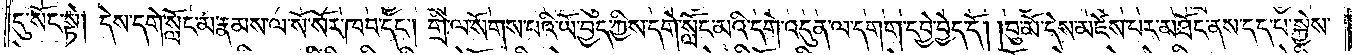དུ་སོང་སྟེ། དེས་དགེ་སློང་མ་རྣམས་ལ་སོ་སོར་ཁབ་དང༌། གྲི་ལ་སོགས་པའི་ཡོ་བྱད་ཀྱིས་དགེ་སློང་མའི་དགེ་འདུན་ལ་དགག་དབྱེ་བྱེད་དོ། །བུ་མོ་དེས་མཛེས་པར་མཐོང་ནས་དད་པ་སྐྱེས་
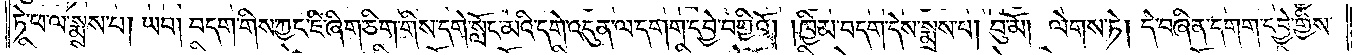ཏེ་ཕ་ལ་སྨྲས་པ། ཡབ། བདག་གིས་ཀྱང་ཇི་ཞིག་ཅིག་གིས་དགེ་སློང་མའི་དགེ་འདུན་ལ་དགག་དབྱེ་བགྱིའོ། །ཁྱིམ་བདག་དེས་སྨྲས་པ། བུ་མོ། ལེགས་ཏེ། དེ་བཞིན་དགག་དབྱེ་གྱིས་
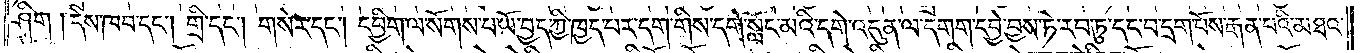ཤིག །དེས་ཁབ་དང༌། གྲི་དང༌། གསེར་དང༌། དབྱིག་ལ་སོགས་པ་ཡོ་བྱད་ཀྱི་ཁྱད་པར་དག་གིས་དགེ་སློང་མའི་དགེ་འདུན་ལ་དགག་དབྱེ་བྱས་ཏེ་རབ་ཏུ་དང་བ་དྲག་པོས་རྒན་པའི་མཐའ་
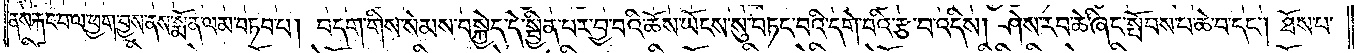ནས་རྐང་བ་ལ་ཕྱག་བྱས་ནས་སྨོན་ལམ་བཏབ་པ། བདག་གིས་སེམས་བསྐྱེད་དེ་སྦྱིན་པར་བྱ་བའི་ཆོས་ཡོངས་སུ་བཏང་བའི་དགེ་བའི་རྩ་བ་འདིས། ཤེས་རབ་ཆེ་ཞིང་སྤོབས་པ་ཆེ་བ་དང༌། ཐོས་པ་
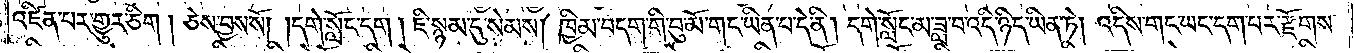འཛིན་པར་གྱུར་ཅིག། ཅེས་བྱས་སོ། །དགེ་སློང་དག། ཇི་སྙམ་དུ་སེམས། ཁྱིམ་བདག་གི་བུ་མོ་གང་ཡིན་པ་དེ་ནི། དགེ་སློང་མ་ཟླ་བ་འདི་ཉིད་ཡིན་ཏེ། འདིས་གང་ཡང་དག་པར་རྫོགས་
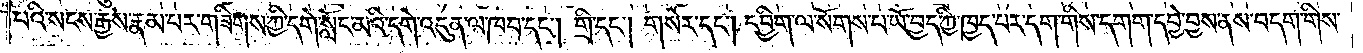པའི་སངས་རྒྱས་རྣམ་པར་གཟིགས་ཀྱི་དགེ་སློང་མའི་དགེ་འདུན་ལ་ཁབ་དང༌། གྲི་དང༌། གསེར་དང༌། དབྱིག་ལ་སོགས་པ་ཡོ་བྱད་ཀྱི་ཁྱད་པར་དག་གིས་དགག་དབྱེ་བྱས་ནས་བདག་གིས་
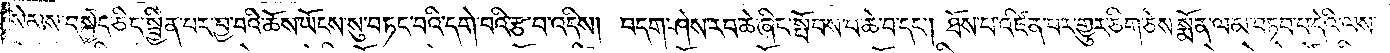སེམས་བསྐྱེད་ཅིང་སྦྱིན་པར་བྱ་བའི་ཆོས་ཡོངས་སུ་བཏང་བའི་དགེ་བའི་རྩ་བ་འདིས། བདག་ཤེས་རབ་ཆེ་ཞིང་སྤོབས་པ་ཆེ་བ་དང༌། ཐོས་པ་འཛིན་པར་གྱུར་ཅིག་ཅེས་སྨོན་ལམ་བཏབ་པ་དེའི་ལས་
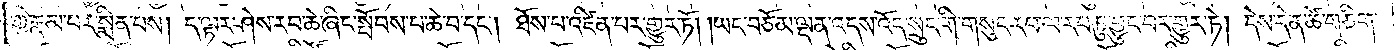ཀྱི་རྣམ་པར་སྨིན་པས། ད་ལྟར་ཤེས་རབ་ཆེ་ཞིང་སྤོབས་པ་ཆེ་བ་དང༌། ཐོས་པ་འཛིན་པར་གྱུར་ཏོ། །ཡང་བཅོམ་ལྡན་འདས་འོད་སྲུང་གི་གསུང་རབ་ལ་རབ་ཏུ་བྱུང་བར་གྱུར་ཏོ། །དེས་དེ་ན་ཚེ་གཅིག་
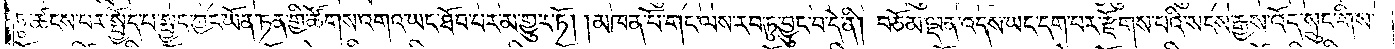ཏུ་ཚངས་པར་སྤྱོད་པ་སྤྱད་ཀྱང་ཡོན་ཏན་གྱི་ཚོགས་འགའ་ཡང་ཐོབ་པར་མ་གྱུར་ཏོ། །མཁན་པོ་གང་ལས་རབ་ཏུ་བྱུང་བ་དེ་ནི། བཅོམ་ལྡན་འདས་ཡང་དག་པར་རྫོགས་པའི་སངས་རྒྱས་འོད་སྲུང་གིས་
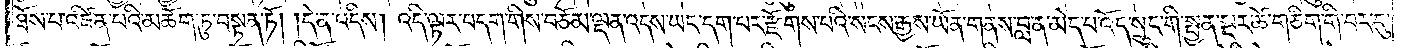ཐོས་པ་འཛིན་པའི་མཆོག་ཏུ་བསྟན་ཏོ། །དེ་ན་འདིས། འདི་ལྟར་བདག་གིས་བཅོམ་ལྡན་འདས་ཡང་དག་པར་རྫོགས་པའི་སངས་རྒྱས་ཡོན་གནས་བླ་ན་མེད་པ་འོད་སྲུང་གི་སྤྱན་སྔར་ཚེ་གཅིག་གི་བར་དུ་
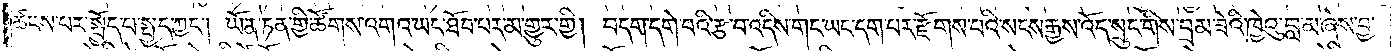ཚངས་པར་སྤྱོད་པ་སྤྱད་ཀྱང༌། ཡོན་ཏན་གྱི་ཚོགས་འགའ་ཡང་ཐོབ་པར་མ་གྱུར་གྱི། བདག་དགེ་བའི་རྩ་བ་འདིས་གང་ཡང་དག་པར་རྫོགས་པའི་སངས་རྒྱས་འོད་སྲུང་གིས་བྲམ་ཟེའི་ཁྱེའུ་བླ་མ་ཞེས་བྱ་
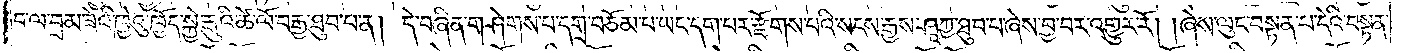བ་ལ་བྲམ་ཟེའི་ཁྱེའུ་ཁྱོད་སྐྱེ་རྒུའི་ཚེ་ལོ་བརྒྱ་ཐུབ་པ་ན། དེ་བཞིན་གཤེགས་པ་དགྲ་བཅོམ་པ་ཡང་དག་པར་རྫོགས་པའི་སངས་རྒྱས་ཤཱཀྱ་ཐུབ་པ་ཞེས་བྱ་བར་འགྱུར་རོ། །ཞེས་ལུང་བསྟན་པ་དེའི་བསྟན་
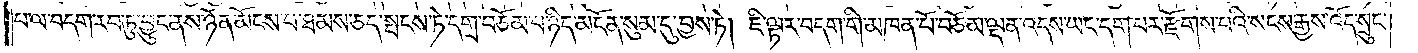པ་ལ་བདག་རབ་ཏུ་བྱུང་ནས་ཉོན་མོངས་པ་ཐམས་ཅད་སྤངས་ཏེ་དགྲ་བཅོམ་པ་ཉིད་མངོན་སུམ་དུ་བྱས་ཏེ། ཇི་ལྟར་བདག་གི་མཁན་པོ་བཅོམ་ལྡན་འདས་ཡང་དག་པར་རྫོགས་པའི་སངས་རྒྱས་འོད་སྲུང་
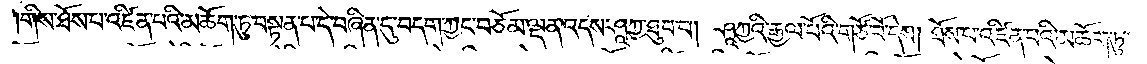གིས་ཐོས་པ་འཛིན་པའི་མཆོག་ཏུ་བསྟན་པ་དེ་བཞིན་དུ་བདག་ཀྱང་བཅོམ་ལྡན་འདས་ཤཱཀྱ་ཐུབ་པ། ཤཱཀྱའི་རྒྱལ་པོའི་གཙོ་བོ་དེས། ཐོས་པ་འཛིན་པའི་མཆོག་ཏུ་
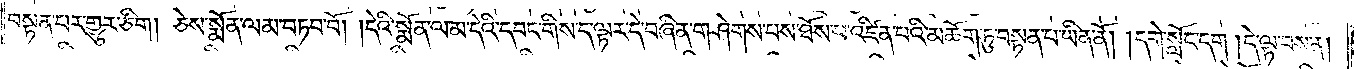བསྟན་པར་གྱུར་ཅིག །ཅེས་སྨོན་ལམ་བཏབ་བོ། །དེའི་སྨོན་ལམ་དེའི་དབང་གིས་ད་ལྟར་དེ་བཞིན་གཤེགས་པས་ཐོས་པ་འཛིན་པའི་མཆོག་ཏུ་བསྟན་པ་ཡིན་ནོ། །དགེ་སློང་དག །དེ་ལྟ་བས་ན།
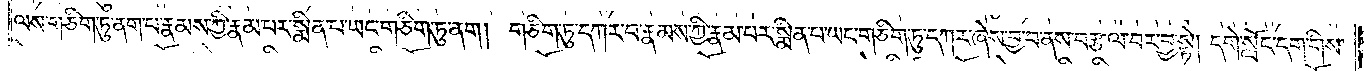ལས་གཅིག་ཏུ་ནག་པ་རྣམས་ཀྱི་རྣམ་པར་སྨིན་པ་ཡང་གཅིག་ཏུ་ནག །གཅིག་ཏུ་དཀར་བ་རྣམས་ཀྱི་རྣམ་པར་སྨིན་པ་ཡང་གཅིག་ཏུ་དཀར་ཞེས་བྱ་བ་ནས་བརྩལ་བར་བྱ་སྟེ། དགེ་སློང་དག་གིས་
